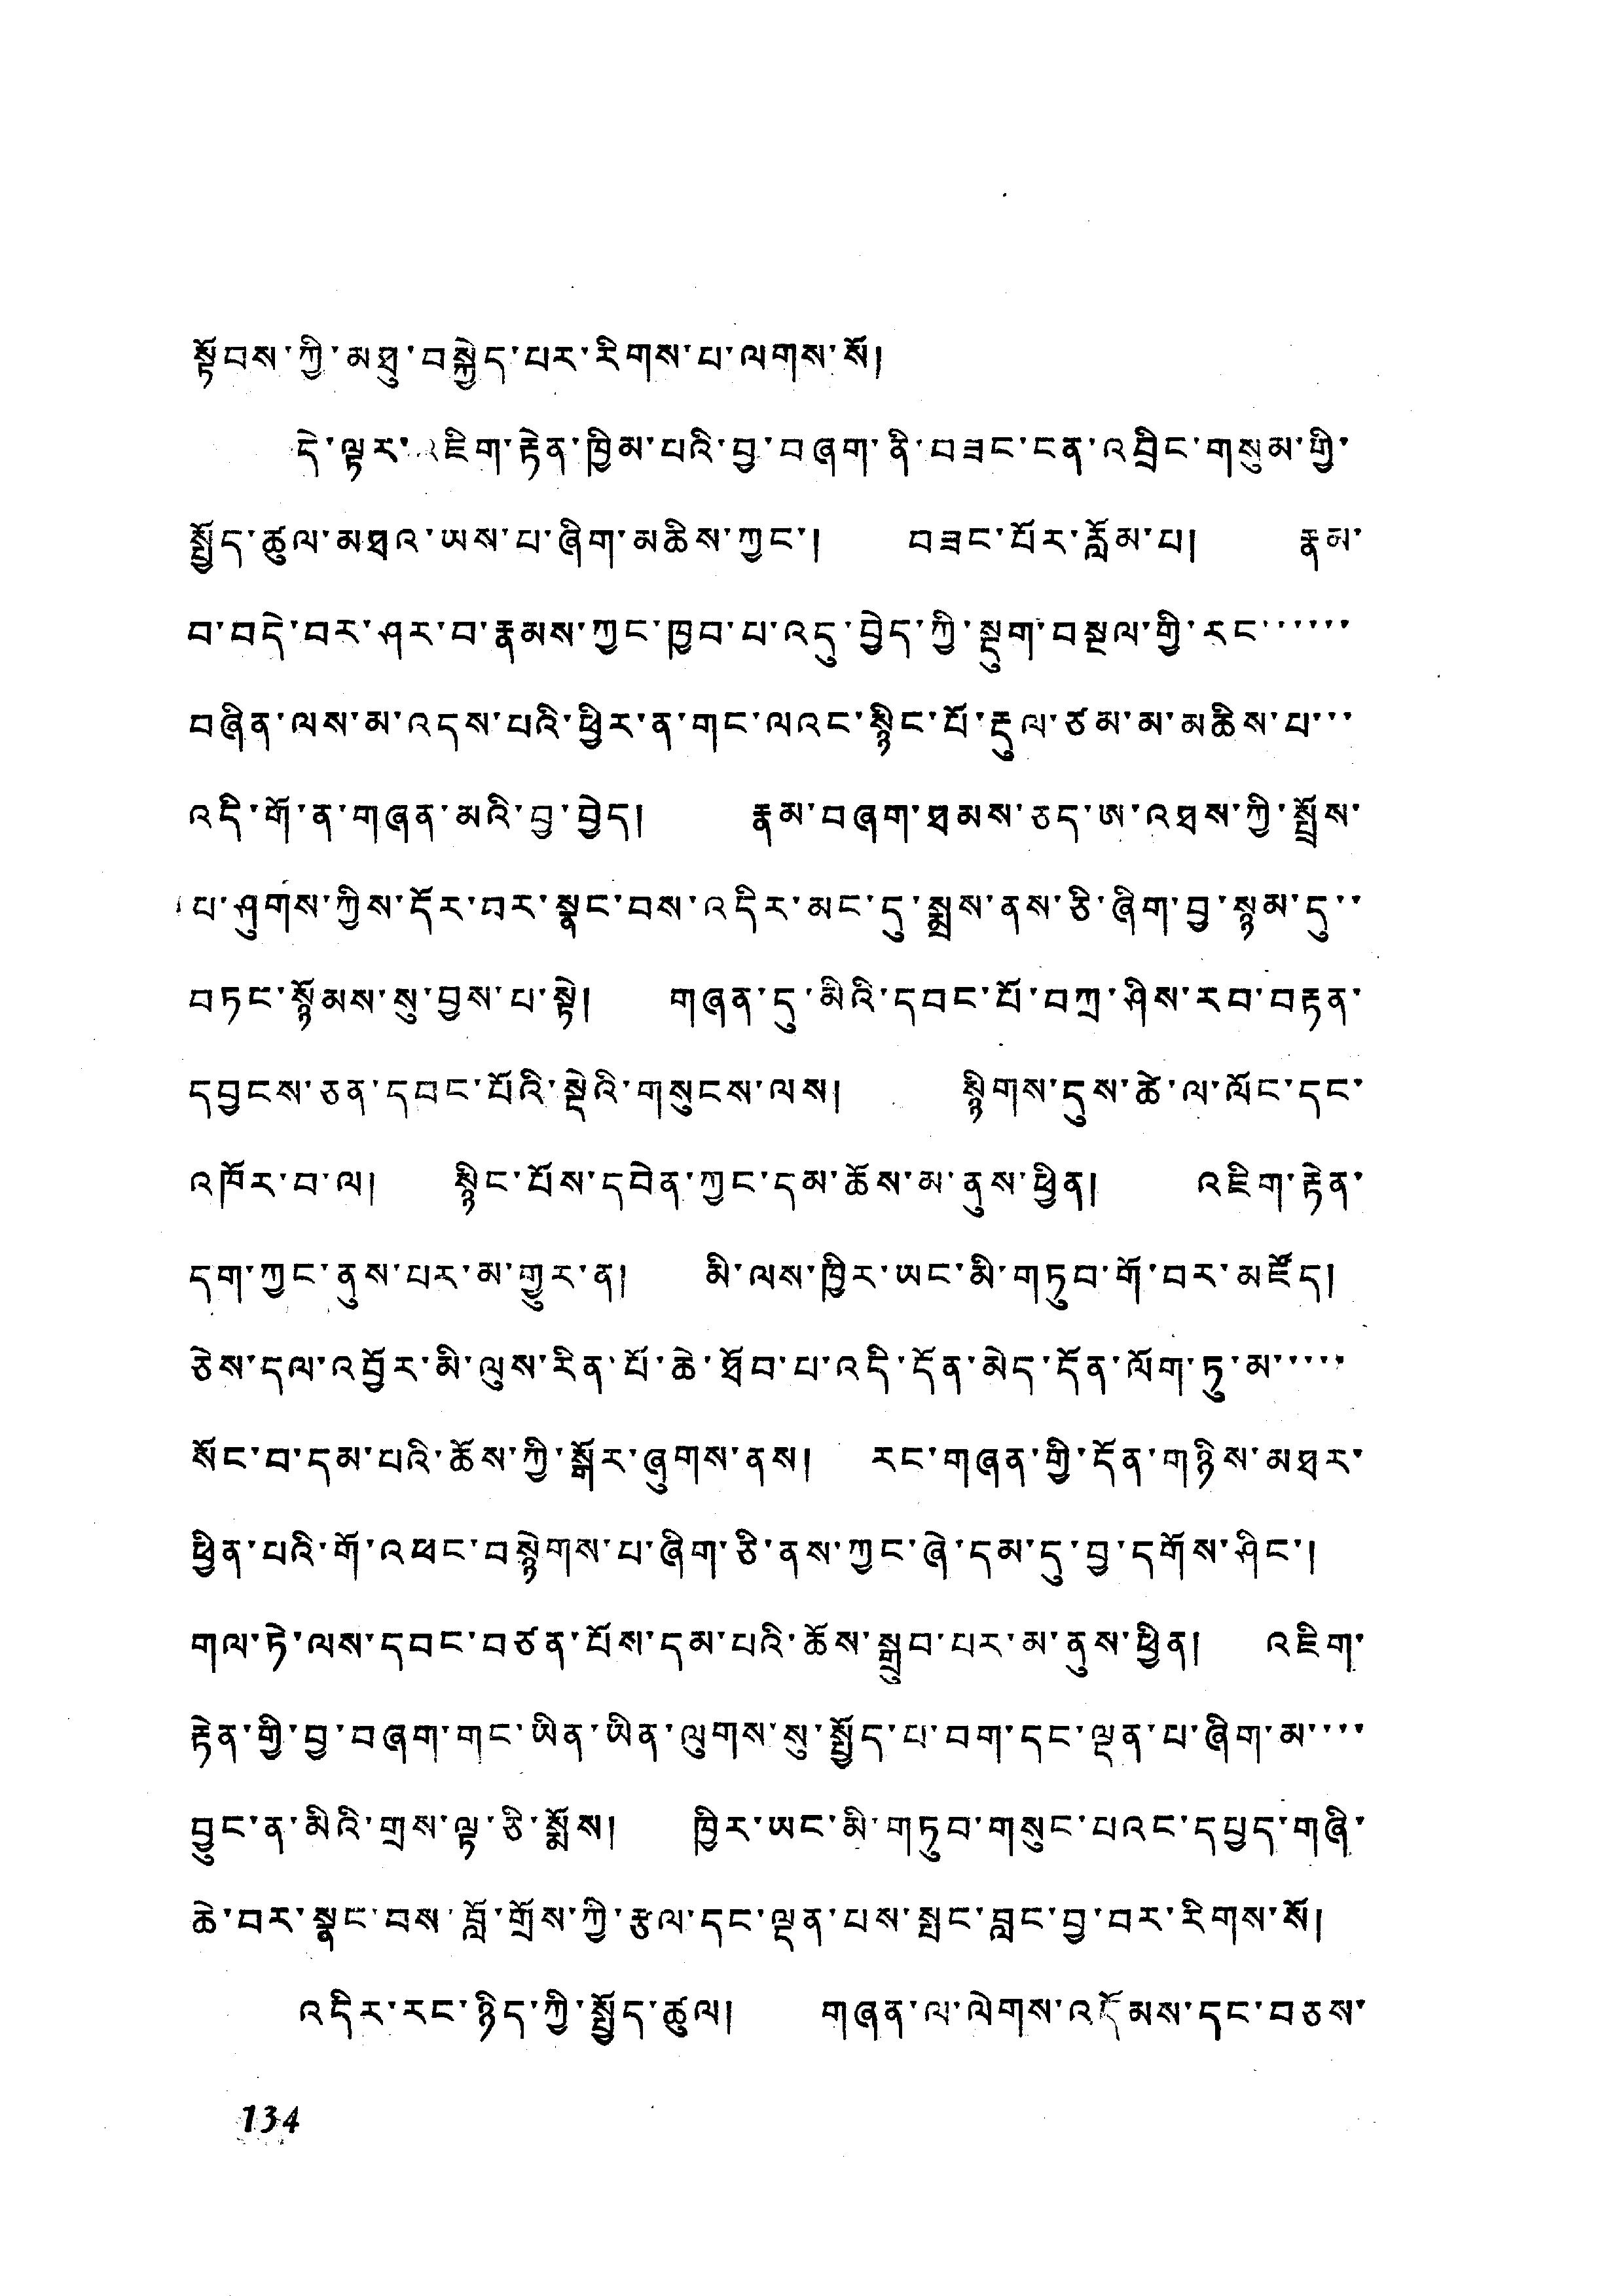སྟོབས་ཀྱི་མཐུ་བསྐྱེད་པར་རིགས་པ་ལགས་སོ།
དེ་ལྟར་འཇིག་རྟེན་ཁྱིམ་པའི་བྱ་བཞག་ནི་བཟང་ངན་འབྲིང་གསུམ་གྱི་
སྤྱོད་ཚུལ་མཐའ་ཡས་པ་ཞིག་མཆིས་ཀྱང་། བཟང་པོར་རློམ་པ། ནམ་
བ་བདེ་བར་ཤར་བ་རྣམས་ཀྱང་ཁྱབ་པ་འདུ་བྱེད་ཀྱི་སྡུག་བསྔལ་གྱི་རང་་་་་་
བཞིན་ལས་མ་འདས་པའི་ཕྱིར་ན་གང་ལའང་སྙིང་པོ་རྡུལ་ཙམ་མ་མཆིས་པ་་་
འདི་གོ་ན་གཞན་མའི་བྱ་བྱེད། རྣམ་བཞག་ཐམས་ཅད་ཨ་འཐས་ཀྱི་སྤྲོས་
པ་ཤུགས་ཀྱིས་དོར་བར་སྣང་བས་འདིར་མང་དུ་སྨྲས་ནས་ཅི་ཞིག་བྱ་སྙམ་དུ་་
བཏང་སྙོམས་སུ་བྱས་པ་སྟེ། གཞན་དུ་མིའི་དབང་པོ་བཀྲ་ཤིས་རབ་བརྟན་
དབྱངས་ཅན་དབང་པོའི་སྡེའི་གསུངས་ལས། སྙིགས་དུས་ཚེ་ལ་ལོང་དང་
འཁོར་བ་ལ། སྙིང་པོས་དབེན་ཀྱང་དམ་ཆོས་མ་ནས་ཕྱིན། འཇིག་རྟེན་
དག་ཀྱང་ནུས་པར་མ་གྱུར་ན། མི་ལས་ཁྱིར་ཡང་མི་གཏུབ་གོ་བར་མཛོད།
ཅེས་དལ་འབྱོར་མི་ལུས་རིན་པོ་ཆེ་ཐོབ་པ་འདི་དོན་མེད་དོན་ལོག་ཏུམ་་་་་
སོང་བ་དམ་པའི་ཆོས་ཀྱི་སྒོར་ཞུགས་ནས། རང་གཞན་གྱི་དོན་གཉིས་མཐར་
ཕྱིན་པའི་གོ་འཕང་བསྙེགས་པ་ཞིག་ཅི་ནས་ཀྱང་ཞེ་དམ་དུ་བྱ་དགོས་ཤིང་།
གལ་ཏེ་ལས་དབང་བཙན་པོས་དམ་པའི་ཆོས་སྒྲུབ་པར་མ་ནས་ཕྱིན། འཇིག་
རྟེན་གྱི་བྱ་བཞག་གང་ཡིན་ཡིན་ལུགས་སུ་སྤྱོད་པ་བག་དང་ལྡན་པ་ཞིག་མ་་་་
བྱུང་ན་མིའི་གྲས་ལྷ་ཅི་སྨོས། ཁྱིར་ཡང་མི་གཏུབ་གསུང་པའང་དཔྱད་གཞི་
ཆེ་བར་སྣང་བས་བློ་གྲོས་ཀྱི་རྩལ་དང་ལྡན་པས་སྤང་བླང་བྱ་བར་རིགས་སོ།
འདིར་རང་ཉིད་ཀྱི་སྤྱོད་ཚུལ། གཞན་ལ་ལེགས་འདོམས་དང་བཅས་
134
